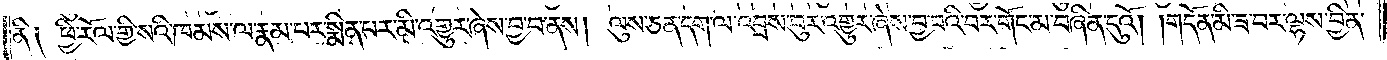ནི། ཕྱི་རོལ་གྱི་སའི་ཁམས་ལ་རྣམ་པ་སྨིན་པར་མི་འགྱུར་ཞེས་བྱ་བ་ནས། ལུས་ཅན་དག་ལ་འབྲས་བུར་འགྱུར་ཞེས་བྱ་བའི་བར་གོང་མ་བཞིན་དུའོ། །གདོན་མི་ཟ་བར་ལྷས་བྱིན་
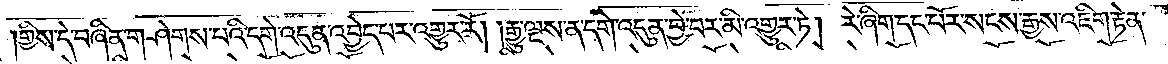།གྱིས་དེ་བཞིན་གཤེགས་པའི་དགེ་འདུན་འབྱེད་པར་འགྱུར་རོ། །རྒྱུ་ལྔས་ན་དགེ་འདུན་བྱེ་བར་མི་འགྱུར་ཏེ། རེ་ཞིག་དང་པོར་སངས་རྒྱས་འཇིག་རྟེན་
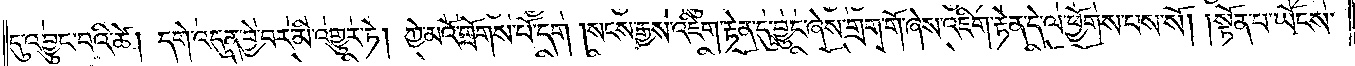དུ་འབྱུང་བའི་ཚེ། དགེ་འདུན་བྱེ་བར་མི་འགྱུར་ཏེ། ཀྱེ་མའོ་གྲོགས་པོ་དག །སངས་རྒྱས་འཇིག་རྟེན་དུ་བྱུང་ཞེས་གྲག་གོ་ཞེས་འཇིག་རྟེན་དེ་ལ་ཕྱོགས་པས་སོ། །སྟོན་པ་ཡོངས་
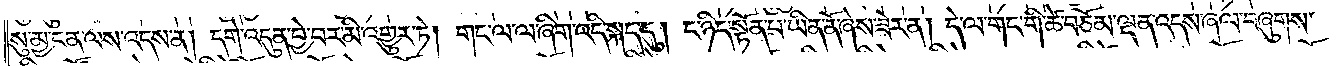སུ་མྱ་ངན་ལས་འདས་ན། དགེ་འདུན་བྱེ་བར་མི་འགྱུར་ཏེ། གང་ལ་ལ་ཞིག་འདི་སྐད་དུ། ང་ཉིད་སྟོན་པ་ཡིན་ནོ་ཞེས་ཟེར་ན། དེ་ལ་གང་གི་ཚེ་བཅོམ་ལྡན་འདས་ཞལ་བཞུགས་
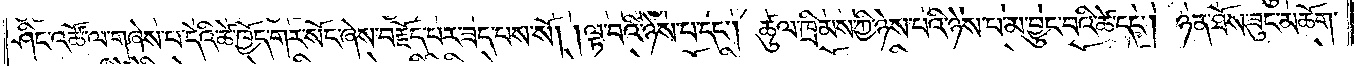ཤིང་འཚོ་ལ་གཞེས་པ་དེའི་ཚེ་ཁྱོད་གར་སོང་ཞེས་བརྗོད་པར་ཟད་པས་སོ། །ལྟ་བའི་ཉེས་པ་དང༌། ཚུལ་ཁྲིམས་ཀྱི་ཉེས་པའི་ཉེས་པ་མ་བྱུང་བའི་ཚེ་དང༌། ཉན་ཐོས་ཟུང་མཆོག་
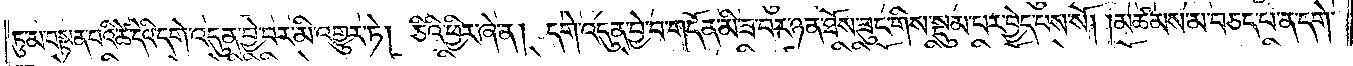ཏུ་མ་བསྟན་པའི་ཚེ་དགེ་འདུན་བྱེ་བར་མི་འགྱུར་ཏེ། ཅིའི་ཕྱིར་ཞེ་ན། དགེ་འདུན་བྱེ་བ་གདོན་མི་ཟ་བར་ཉན་ཐོས་ཟུང་གིས་སྡུམ་པར་བྱེད་པས་སོ། །མཚམས་མ་བཅད་པ་ན་དགེ་
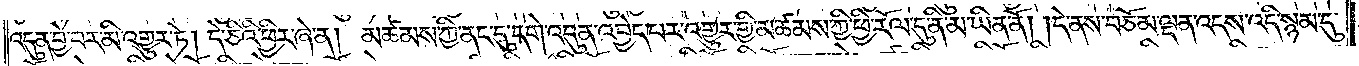འདུན་བྱེ་བར་མི་འགྱུར་ཏེ། དེ་ཅིའི་ཕྱིར་ཞེ་ན། མཚམས་ཀྱི་ནང་དུ་དགེ་འདུན་འབྱེད་པར་འགྱུར་གྱི་མཚམས་ཀྱི་ཕྱི་རོལ་དུ་ནི་མ་ཡིན་ནོ། །དེ་ནས་བཅོམ་ལྡན་འདས་འདི་སྙམ་དུ་
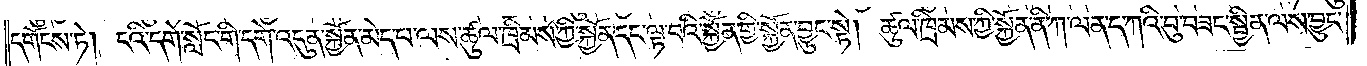དགོངས་ཏེ། ངའི་དགེ་སློང་གི་དགེ་འདུན་སྐྱོན་མེད་པ་ལས་ཚུལ་ཁྲིམས་ཀྱི་སྐྱོན་དང་ལྟ་བའི་སྐྱོན་གྱི་སྐྱོན་བྱུང་སྟེ། ཚུལ་ཁྲིམས་ཀྱི་སྐྱོན་ནི་ཀ་ལ་ན་ད་ཀའི་བུ་བཟང་སྦྱིན་ལས་བྱུང་
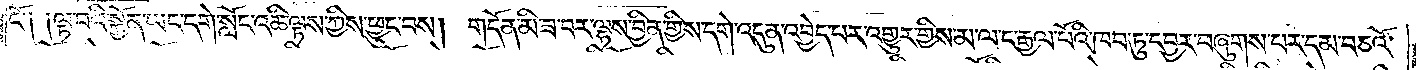ངོ༑ ༑ལྟ་བའི་སྐྱོན་ཡང་དགེ་སློང་འཆི་ལྟས་ཀྱིས་ཕྱུང་བས། གདོན་མི་ཟ་བར་ལྷས་བྱིན་གྱིས་དགེ་འདུན་འབྱེད་པར་འགྱུར་གྱིས་མ་ལ་ང་རྒྱལ་པོའི་ཁབ་ཏུ་དབྱར་བཞུགས་པར་དམ་བཅའོ་
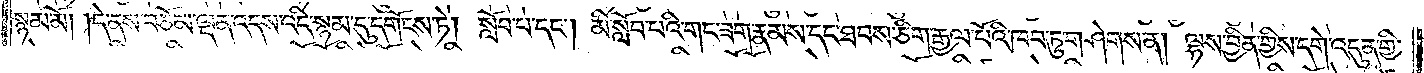སྙམ་མོ། །དེ་ནས་བཅོམ་ལྡན་འདས་འདི་སྙམ་དུ་དགོངས་ཏེ། སློབ་པ་དང༌། མི་སློབ་པའི་གང་ཟག་རྣམས་དང་ཐབས་ཅིག་རྒྱལ་པོའི་ཁབ་ཏུ་གཤེགས་ན། ལྷས་བྱིན་གྱིས་དགེ་འདུན་གྱི་
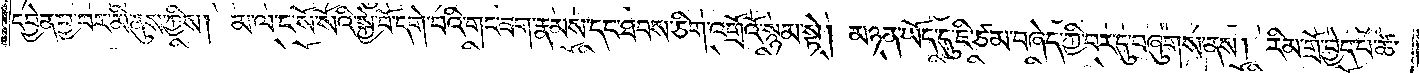དབྱེན་བྱ་བར་མི་ནུས་ཀྱིས། མ་ལ་ང་སོ་སོའི་སྐྱེ་བོ་དགེ་བའི་གང་ཟག་རྣམས་དང་ཐབས་ཅིག་འགྲོའོ་སྙམ་སྟེ། མཉན་ཡོད་དུ་ཇི་ཙམ་བཞེད་ཀྱི་བར་དུ་བཞུགས་ནས། རིམ་གྲོ་བྱེད་པ་ཚེ་
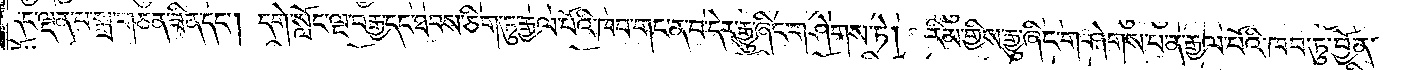དང་ལྡན་པ་སྒྲ་གཅན་ཟིན་དང༌། དགེ་སློང་ལྔ་བརྒྱ་དང་ཐབས་ཅིག་ཏུ་རྒྱལ་པོའི་ཁབ་གང་ན་བ་དེར་རྒྱུ་ཞིང་གཤེགས་ཏེ། རིམ་གྱིས་རྒྱུ་ཞིང་གཤེགས་པ་ན་རྒྱལ་པོའི་ཁབ་ཏུ་བྱོན་
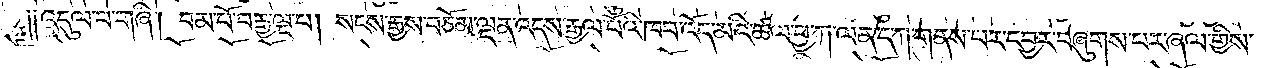ཏོ༎  ༎འདུལ་བ་གཞི། བམ་པོ་བརྒྱ་ལྔ་པ། སངས་རྒྱས་བཅོམ་ལྡན་འདས་རྒྱལ་པོའི་ཁབ་འོད་མའི་ཚལ་བྱ་ཀ་ལན་ད་ཀ་གནས་པར་དབྱར་བཞུགས་པར་ཞལ་གྱིས་
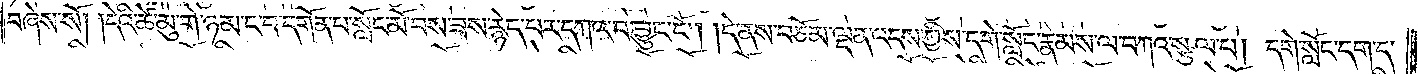བཞེས་སོ། །དེའི་ཚེ་མུ་གེ་ཉམ་ང་བ་དགོན་པ་སློང་མོ་བས་ཟས་རྙེད་པར་དཀའ་བ་བྱུང་ངོ༌། །དེ་ནས་བཅོམ་ལྡན་འདས་ཀྱིས་དགེ་སློང་རྣམས་ལ་བཀའ་སྩལ་པ། དགེ་སློང་དག་ད་
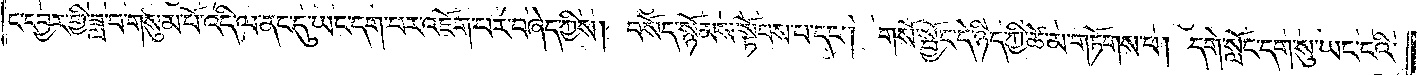ང་དབྱར་གྱི་ཟླ་བ་གསུམ་པོ་འདི་ལན་ནང་དུ་ཡང་དག་པར་འཇོག་པར་བཞེད་ཀྱིས། །བསོད་སྙོམས་སྟོབས་པ་དང༌། གསོ་སྦྱོང་དེ་ཉིད་ཀྱི་ཚེ་མ་གཏོགས་པ། དགེ་སློང་དག་སུ་ཡང་ངའི་
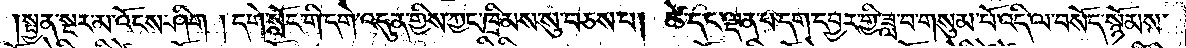སྤྱན་སྔར་མ་འོངས་ཤིག །དགེ་སློང་གི་དགེ་འདུན་གྱིས་ཀྱང་ཁྲིམས་སུ་བཅས་པ། ཚེ་དང་ལྡན་པ་དག་དབྱར་གྱི་ཟླ་བ་གསུམ་པོ་འདི་ལ་བསོད་སྙོམས་
